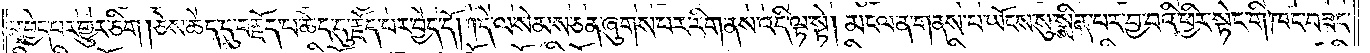པ་བྱེད་པར་གྱུར་ཅིག །ཅེས་ཆེད་དུ་བརྗོད་པ་ཆེད་དུ་རྗོད་པར་བྱེད་དོ། །དེ་ལ་སེམས་ཅན་ཞུགས་པར་རིག་ནས་འདི་ལྟ་སྟེ། མངལ་ན་གནས་པ་ཡོངས་སུ་སྨིན་པར་བྱ་བའི་ཕྱིར་སྟེང་གི་ཁང་བཟང་
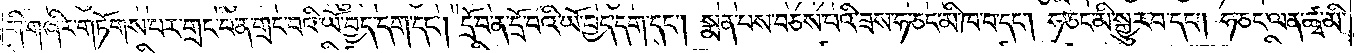གི་གཞིར་གཏོགས་པར་གྲང་པ་ན་གྲང་བའི་ཡོ་བྱད་དག་དང༌། དྲོ་བ་ན་དྲོ་བའི་ཡོ་བྱད་དག་དང༌། སྨན་པས་བཅས་པའི་ཟས་ཧ་ཅང་མི་ཁ་བ་དང༌། ཧ་ཅང་མི་སྐྱུར་བ་དང༌། ཧ་ཅང་ལན་ཚྭ་མི་
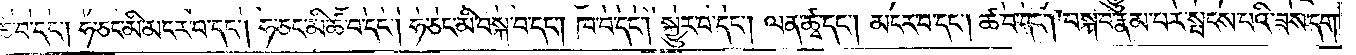ཆེ་བ་དང༌། ཧ་ཅང་མི་མངར་བ་དང༌། ཧ་ཅང་མི་ཚ་བ་དང༌། ཧ་ཅང་མི་བསྐ་བ་དང༌། ཁ་བ་དང༌། སྐྱུར་བ་དང༌། ལན་ཚྭ་དང༌། མངར་བ་དང༌། ཚ་བ་དང༌། བསྐ་བ་རྣམ་པར་སྤངས་པའི་ཟས་དག་
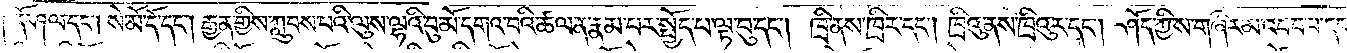དང༌། དོ་ཤལ་དང༌། སེ་མོ་དོ་དང༌། རྒྱན་གྱིས་ཀླུབས་པའི་ལུས་ལྷའི་བུ་མོ་དགའ་བའི་ཚལ་ན་རྣམ་པར་སྤྱོད་པ་ལྟ་བུ་དང༌། ཁྲི་ནས་ཁྲིར་དང༌། ཁྲིའུ་ནས་ཁྲིའུར་དང༌། ཤོད་ཀྱིས་གཞིར་མ་འབབ་པ་དང་
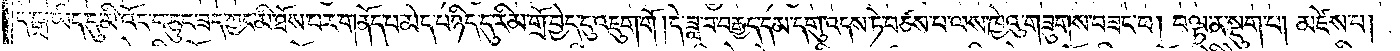དེ་སྒྲ་ཡིད་དུ་མི་འོང་བ་ཅུང་ཟད་ཀྱང་མི་ཐོས་པར་གནོད་པ་མེད་པ་ཉིད་དུ་རིམ་གྲོ་བྱེད་དུ་འཇུག་གོ །དེ་ཟླ་བ་བརྒྱད་དམ་དགུ་འདས་ཏེ་བཙས་པ་ལས་ཁྱེའུ་གཟུགས་བཟང་བ། བལྟ་ན་སྡུག་པ། མཛེས་པ།
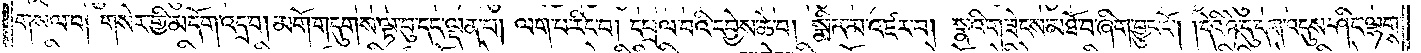གསལ་བ། གསེར་གྱི་མདོག་འདྲ་བ། མགོ་གདུགས་ལྟ་བུ་དང་ལྡན་པ། ལག་པ་རིང་བ། དཔྲལ་བའི་དབྱེས་ཆེ་བ། སྨིན་མ་འཛར་བ། སྣའི་གཟེངས་མཐོ་བ་ཞིག་བྱུང་ངོ༌། །དེའི་ཉེ་དུ་དག་འདུས་ཤིང་ལྷགས་
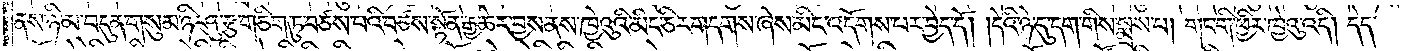ནས་ཉི་མ་བདུན་གསུམ་ཉི་ཤུ་རྩ་གཅིག་ཏུ་བཙས་པའི་བཙས་སྟོན་རྒྱ་ཆེར་བྱས་ནས་ཁྱེའུའི་མིང་ཅིར་གདགས་ཞེས་མིང་འདོགས་པར་བྱེད་དོ། །དེའི་ཉེ་དུ་དག་གིས་སྨྲས་པ། གང་གི་ཕྱིར་ཁྱེའུ་འདི། དེད་
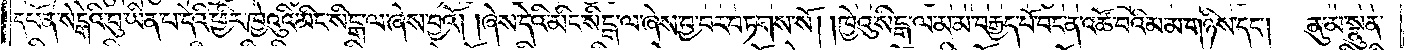དཔོན་སེངྒེའི་བུ་ཡིན་པ་དེའི་ཕྱིར་ཁྱེའུའི་མིང་སིངྒ་ལ་ཞེས་བྱའོ། །ཞེས་དེའི་མིང་སིངྒ་ལ་ཞེས་བྱ་བར་བཏགས་སོ། །ཁྱེའུ་སིངྒ་ལ་མ་མ་བརྒྱད་པོ་བང་ན་འཚོ་བའི་མ་མ་གཉིས་དང༌། ནུ་མ་སྣུན་
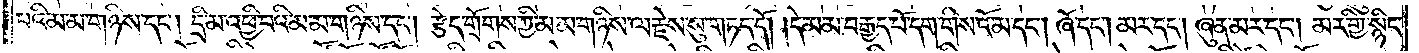པའི་མ་མ་གཉིས་དང༌། དྲི་མ་འཕྱི་བའི་མ་མ་གཉིས་དང༌། རྩེད་གྲོགས་ཀྱི་མ་མ་གཉིས་ལ་རྗེས་སུ་གཏད་དོ། །དེ་མ་མ་བརྒྱད་པོ་དག་གིས་འོ་མ་དང༌། ཞོ་དང༌། མར་དང༌། ཞུན་མར་དང༌། མར་གྱི་སྙིང་
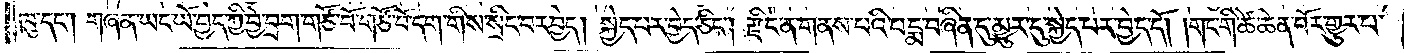ཁུ་དང༌། གཞན་ཡང་ཡོ་བྱད་ཀྱི་བྱེ་བྲག་གཙོ་བོ་གཙོ་བོ་དག་གིས་སྲིང་བར་བྱེད། སྐྱེད་པར་བྱེད་ཅིང༌། རྫིང་ན་གནས་པའི་པདྨ་བཞིན་དུ་མྱུར་དུ་སྐྱེད་པར་བྱེད་དོ། །གང་གི་ཚེ་ཆེན་པོར་གྱུར་པ་
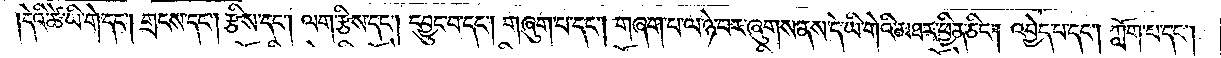དེའི་ཚེ་ཡི་གེ་དང༌། གྲངས་དང༌། རྩིས་དང༌། ལག་རྩིས་དང༌། དབྱུང་བ་དང༌། གཞུག་པ་དང༌། གཞག་པ་ལ་ཉེ་བར་ཞུགས་ནས་དེ་ཡི་གེའི་མཐར་ཕྱིན་ཅིང༌། འབྱེད་པ་དང༌། ཀློག་པ་དང༌།
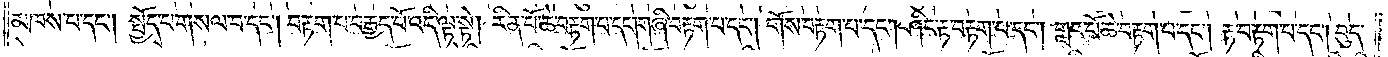མཁས་པ་དང༌། སྤྱོད་པ་གསལ་བ་དང༌། བརྟག་པ་བརྒྱད་པོ་འདི་ལྟ་སྟེ། རིན་པོ་ཆེ་བརྟག་པ་དང༌། གཞི་བརྟག་པ་དང༌། གོས་བརྟག་པ་དང༌། ཤིང་རྟ་བརྟག་པ་དང༌། གླང་པོ་ཆེ་བརྟག་པ་དང༌། རྟ་བརྟག་པ་དང༌། བུད་
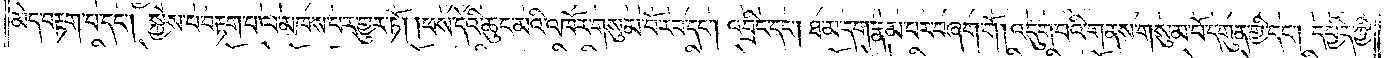མེད་བརྟག་པ་དང༌། སྐྱེས་པ་བརྟག་པ་ལ་མཁས་པར་གྱུར་ཏོ། །ཕས་དེའི་ཆུང་མའི་འཁོར་གསུམ་པོ་རབ་དང༌། འབྲིང་དང༌། ཐ་མ་དག་རྣམ་པར་བཞག་གོ། འདུག་པའི་གནས་གསུམ་པོ་དགུན་གྱི་དང༌། དཔྱིད་ཀྱི་
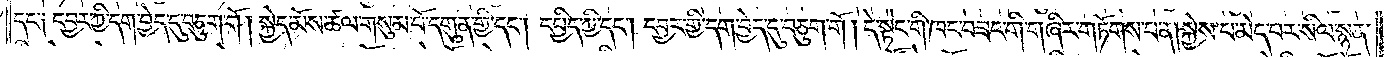དང་༑ དབྱར་ཀྱི་དག་བྱེད་དུ་བཅུག་གོ །སྐྱེད་མོས་ཚལ་གསུམ་པོ་དགུན་གྱི་དང༌། དཔྱིད་ཀྱི་དང༌། དབྱར་གྱི་དག་བྱེད་དུ་བཅུག་གོ །དེ་སྟེང་གི་ཁང་བཟང་གི་གཞིར་གཏོགས་པ་ན། སྐྱེས་པ་མེད་པར་སིལ་སྙན་
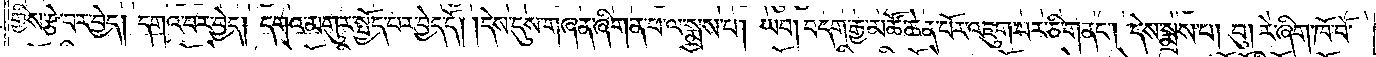གྱིས་རྩེ་བར་བྱེད། དགའ་བར་བྱེད། དགའ་མགུར་སྤྱོད་པར་བྱེད་དོ། །དེས་དུས་གཞན་ཞིག་ན་ཕ་ལ་སྨྲས་པ། ཡབ། བདག་རྒྱ་མཚོ་ཆེན་པོར་འཇུག་པར་ཅི་གནང༌། དེས་སྨྲས་པ། བུ། རེ་ཞིག་ཁོ་བོ་
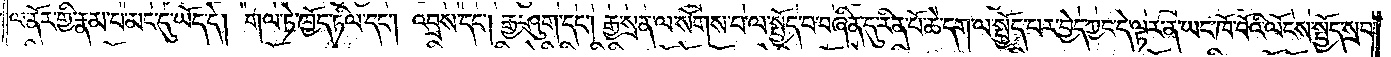ལ་ནོར་གྱི་རྣམ་པ་མང་དུ་ཡོད་དེ། གལ་ཏེ་ཁྱོད་ཏིལ་དང༌། འབྲས་དང༌། རྒྱ་ཤུག་དང༌། རྒྱ་སྲན་ལ་སོགས་པ་ལ་སྤྱོད་པ་བཞིན་དུ་རིན་པོ་ཆེ་དག་ལ་སྤྱོད་པར་བྱེད་ཀྱང་དེ་ལྟར་ན་ཡང་ཁོ་བོའི་ལོངས་སྤྱོད་སྲབ་
